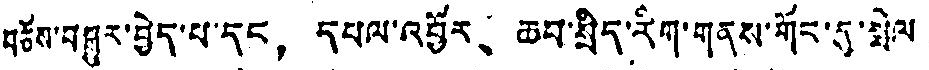བཅོས་བཤུར་བྱེད་པ་དང， དཔལ་འབྱོར、 ཆབ་སྲིད་རིག་གནས་གོང་དུ་སྤེལ
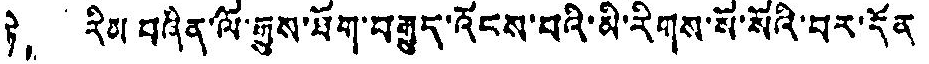ཏེ， རིམ བཞིན་ལོ་རྒྱུས་ཐོག་བརྒྱུད་འོངས་པའི་མི་རིགས་སོ་སོའི་བར་དོན
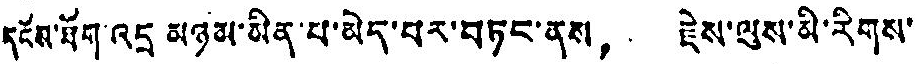དངོས་ཐོག་འདྲ མཉམ་མིན་པ་མེད་པར་བཏང་ནས， རྗེས་ལུས་མི་རིགས་
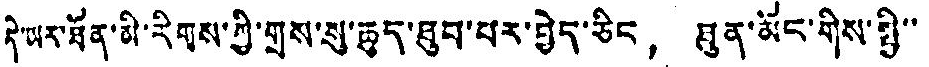དེ་ཡར་ཐོན་མི་རིགས་ཀྱི་གྲས་སུ་ཆུད་ཐུབ་པར་བྱེད་ཅིང， ཐུན་མོང་གིས་སྤྱི་་
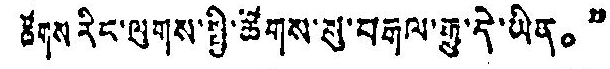ཚོགས རིང་ལུགས་སྤྱི་ཚོགས་སུ་བརྒལ་རྒྱུ་དེ་ཡིན。”
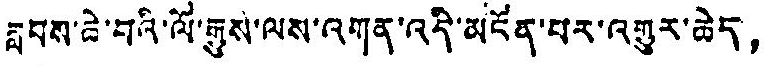རླབས་ཆེ་བའི་ལོ་རྒྱུས་ལས་འགན་འདི་མངོན་པར་འགྱུར་ཆེད，
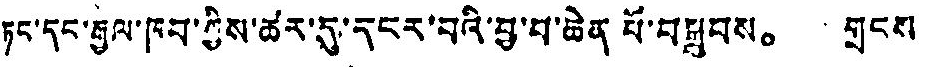ཏང་དང་རྒྱལ་ཁབ་ཀྱིས་ཚར་དུ་དངར་བའི་བྱ་བ་ཆེན པོ་བསྒྲུབས。 གྲངས་
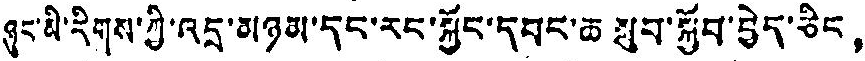ཞུང་མི་རིགས་ཀྱི་འདྲ་མཉམ་དང་རང་སྐྱོང་དབང་ཆ སུབ་སྐྱོབ་བྱེད་ཅིང，
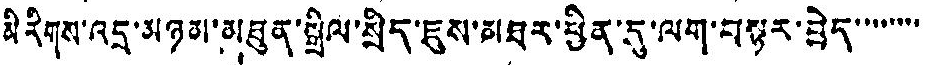མི རིགས་འདྲ་མཉམ་མཐུན་སྒྲིལ་སྲིད་ཇུས་མཐར་ཕྱིན་དུ་ལག་བསྟར་བྱེད་་་་་་་་
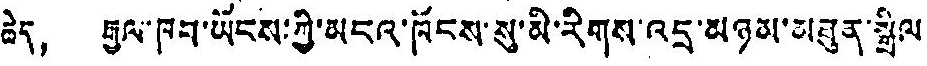ཆེད， རྒྱལ་ཁབ་ཡོངས་ཀྱི་མངའ་ཁོངས་སུ་མི་རིགས་འདྲ་མཉམ་མཐུན་སྒྲིལ་
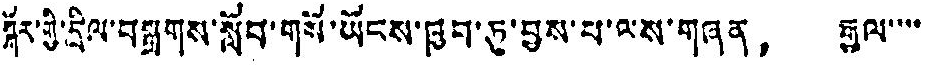སྐོར་གྱི་དྲིལ་བསྒྲགས་སློབ་གསོ་ཡོངས་ཁྱབ་ཏུ་བྱས་པ་ལས་གཞན， རྒྱལ་་་་
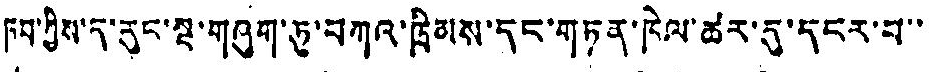ཁབ་ཀྱིས་ད་རུང་སྔ་གཞུག་ཏུ་བཀའ་ཁྲིམས་དང་གཏན་ཁེལ་ཚར་དུ་དངར་བ་་
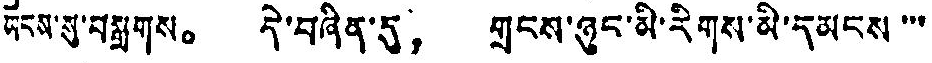ཡོངས་སུ་བསྒྲགས。 དེ་བཞིན་དུ， གྲངས་ཉུང་མི་རིགས་མི་དམངས་་་
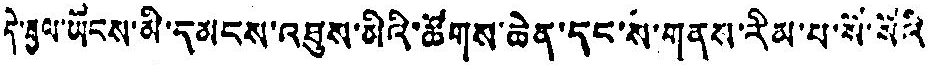དེ་རྒྱལ་ཡོངས་མི་དམངས་འཐུས་མིའི་ཚོགས་ཆེན་དང་ས་གནས་རིམ་པ་སོ་སོའི
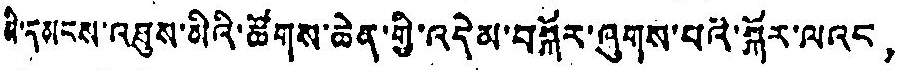མི་དམངས་འཐུས་མིའི་ཚོགས་ཆེན་གྱི་འདེམ་བསྐོར་ཞུགས་པའི་སྐོར་ལའངས，
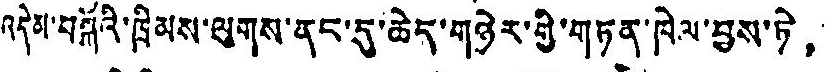འདེམ་བསྐོའི་ཁྲིམས་ལུགས་ནང་དུ་ཆེད་གཉེར་གྱི་གཏན་ཁེལ་བྱས་ཏེ་，
